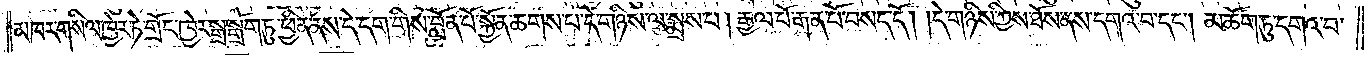མཁར་གསིལ་ཁྱེར་ཏེ་གྲོང་ཁྱེར་སྒྲ་སྒྲོག་ཏུ་ཕྱིན་ནས་དེ་དག་གིས་བློན་པོ་སྐྱོན་ཆགས་པ་དེ་གཉིས་ལ་སྨྲས་པ། རྒྱལ་པོ་རྒན་པོ་བསད་དོ། །དེ་གཉིས་ཀྱིས་ཐོས་ནས་དགའ་བ་དང༌། མཆོག་ཏུ་དགའ་བ་
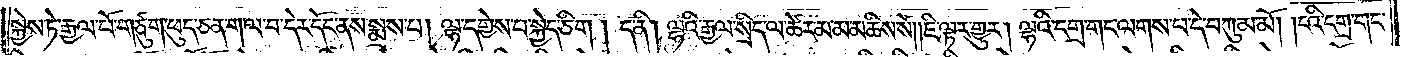སྐྱེས་ཏེ་རྒྱལ་པོ་གཙུག་ཕུད་ཅན་ག་ལ་བ་དེར་དོང་ནས་སྨྲས་པ། ལྷ་དགྱེས་པ་སྐྱེད་ཅིག །ད་ནི། ལྷའི་རྒྱལ་སྲིད་ལ་ཚེར་མ་མཆིས་སོ། །ཇི་ལྟར་གྱུར། ལྷའི་དགྲ་གང་ལགས་པ་དེ་བཀུམ་མོ། །ངའི་དགྲ་གང་
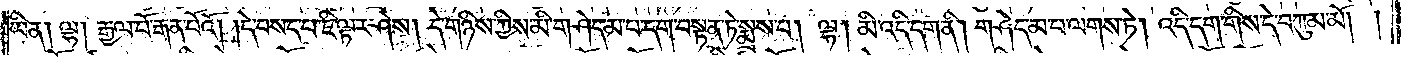ཡིན། ལྷ། རྒྱལ་པོ་རྒན་པོའོ། །དེ་བསད་པ་ཇི་ལྟར་ཤེས། དེ་གཉིས་ཀྱིས་མི་གཤེད་མ་པ་དག་བསྟན་ཏེ་སྨྲས་པ། ལྷ། མི་འདི་དག་ནི། གཤེད་མ་པ་ལགས་ཏེ། འདི་དག་གིས་དེ་བཀུམ་མོ།    །
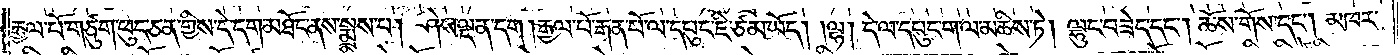རྒྱལ་པོ་གཙུག་ཕུད་ཅན་གྱིས་དེ་དག་མཐོང་ནས་སྨྲས་པ། ཤེས་ལྡན་དག །རྒྱལ་པོ་རྒན་པོ་ལ་དཔུང་ཇི་ཙམ་ཡོད། ལྷ། དེ་ལ་དཔུང་ག་ལ་མཆིས་ཏེ། ལྷུང་བཟེད་དང༌། ཆོས་གོས་དང༌། མཁར་
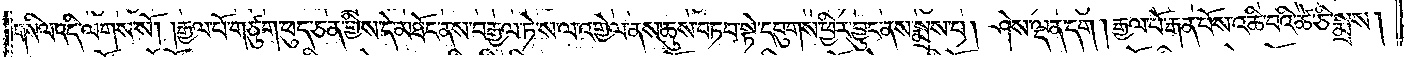གསིལ་འདི་ལགས་སོ། །རྒྱལ་པོ་གཙུག་ཕུད་ཅན་གྱིས་དེ་མཐོང་ནས་བརྒྱལ་ཏེ་ས་ལ་འགྱེལ་ནས་ཆུས་བཏབ་སྟེ་དབུགས་ཕྱིར་བྱུང་ནས་སྨྲས་པ། ཤེས་ལྡན་དག །རྒྱལ་པོ་རྒན་པོས་འཆི་བའི་ཚེ་ཅི་སྨྲས།
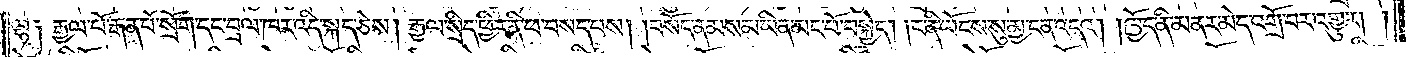ལྷ༑ རྒྱལ་པོ་རྒྱན་པོ་སྲོག་དང་བྲལ་ཁར་འདི་སྐད་ཅེས། རྒྱལ་སྲིད་ཕྱིར་ནི་ཕ་བསད་པས། །བསོད་ནམས་མ་ཡིན་མང་པོ་བསྐྱེད། །ང་ནི་ཡོངས་སུ་མྱ་ངན་འདའ། །ཁྱོད་ནི་མནར་མེད་འགྲོ་བར་འགྱུར། །
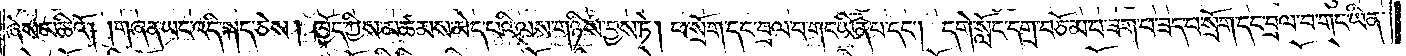ཞེས་མཆིའོ། །གཞན་ཡང་འདི་སྐད་ཅེས། ཁྱོད་ཀྱིས་མཚམས་མེད་པའི་ལས་གཉིས་བྱས་ཏེ། ཕ་སྲོག་དང་བྲལ་བ་གང་ཡིན་པ་དང༌། དགེ་སློང་དགྲ་བཅོམ་པ་ཟག་པ་ཟད་པ་སྲོག་དང་བྲལ་བ་གང་ཡིན་
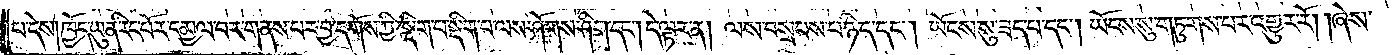པ་དེས། ཁྱོད་ཡུན་རིང་པོར་དམྱལ་བར་གནས་པར་བྱ་དགོས་ཀྱི་སྡིག་པ་སྡིག་པ་ལས་ཤོགས་ཤིག་དང༌། དེ་ལྟར་ན། ལས་བསྲབས་པ་ཉིད་དང།  ཡོངས་སུ་ཟད་པ་དང༌། ཡོངས་སུ་གཏུགས་པར་འགྱུར་རོ། །ཞེས་
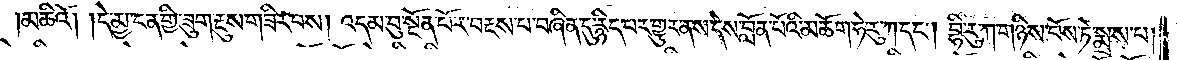མཆིའོ། །དེ་མྱ་ངན་གྱི་ཟུག་རྔུས་གཟིར་བས། འདམ་བུ་སྔོན་པོར་བརྔས་པ་བཞིན་དུ་རྙིད་པར་གྱུར་ནས་དེས་བློན་པོའི་མཆོག་ཧེ་རུ་ཀ་དང༌། བྷི་རུ་ཀ་གཉིས་པོས་ཏེ་སྨྲས་པ་
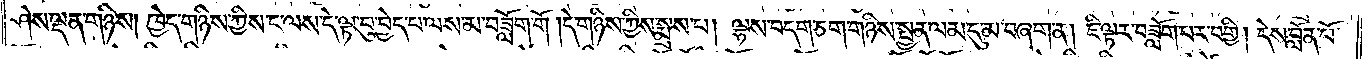ཤེས་ལྡན་གཉིས། ཁྱེད་གཉིས་ཀྱིས་ང་ལས་དེ་ལྟ་བུ་བྱེད་པ་ལས་མ་བཟློག་གོ །དེ་གཉིས་ཀྱིས་སྨྲས་པ། ལྷས་བདག་ཅག་གཉིས་སྤྱན་ལམ་དུ་མ་བཞག་ན། ཇི་ལྟར་བཟློག་པར་བགྱི། དེས་བློན་པོ་
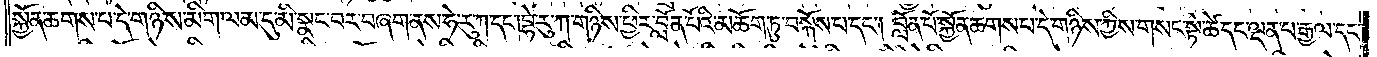སྐྱོན་ཆགས་པ་དེ་གཉིས་མིག་ལམ་དུ་མི་སྣང་བར་བཞག་ནས་ཧེ་རུ་ཀ་དང༌།བྷེ་རུ་ཀ་གཉིས་ཕྱིར་བློན་པོའི་མཆོག་ཏུ་བསྐོས་པ་དང༌། བློན་པོ་སྐྱོན་ཆགས་པ་དེ་གཉིས་ཀྱིས་གསང་སྟེ་ཚེ་དང་ལྡན་པ་རྒྱལ་དང་
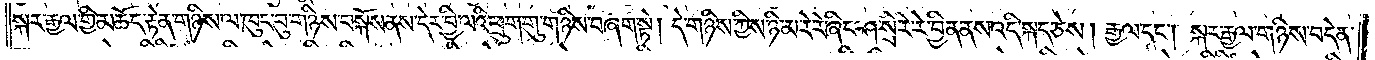སྐར་རྒྱལ་གྱི་མཆོད་རྟེན་གཉིས་ལ་ཁུང་བུ་གཉིས་བསྐོས་ནས་དེར་བྱི་ལའི་ཕྲུག་གུ་གཉིས་བཞག་སྟེ། དེ་གཉིས་ཀྱིས་ཉི་མ་རེ་རེ་ཞིང་ཤ་སྲེ་རེ་རེ་བྱིན་ནས་འདི་སྐད་ཅེས། རྒྱལ་དང༌། སྐར་རྒྱལ་གཉིས་བདེན་
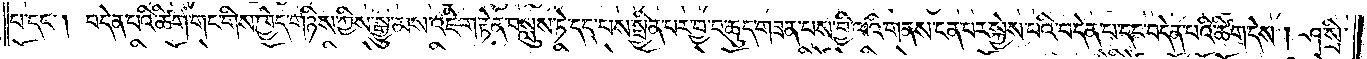པ་དང༌། བདེན་པའི་ཚིག་གང་གིས་ཁྱེད་གཉིས་ཀྱི་སྒྱུ་མས་འཇིག་རྟེན་བསླུས་ཏེ་དད་པས་སྦྱིན་པར་བྱ་བ་ཆུད་གཟན་པས་བྱི་ལའི་གནས་ངན་པར་སྐྱེས་པའི་བདེན་པ་དང་བདེན་པའི་ཚིག་དེས། ཤ་སྲི་
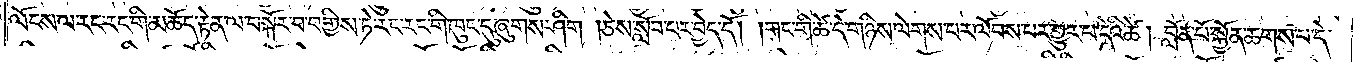ལོངས་ལ་རང་རང་གི་མཆོད་རྟེན་ལ་བསྐོར་བ་བགྱིས་ཏེ་རང་རང་གི་ཁུང་དུ་ཞུགས་ཤིག །ཅེས་སློབ་པར་བྱེད་དོ། །གང་གི་ཚེ་དེ་གཉིས་ལེགས་པར་ལོབས་པར་གྱུར་པ་དེའི་ཚེ། བློན་པོ་སྐྱོན་ཆགས་པ་དེ་
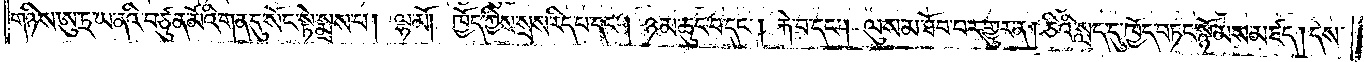གཉིས་ཨུ་ཏྲ་ཡ་ནའི་བཙུན་མོའི་གན་དུ་སོང་སྟེ་སྨྲས་པ། ལྷ་མོ། ཁྱོད་ཀྱིས་སྲས་རིད་པ་དང༌། ཉམ་ཆུང་བ་དང༌། རྐེ་བ་དང༌། ལུས་མ་ཐོབ་པར་གྱུར་ན། ཅིའི་སླད་དུ་ཁྱོད་བཏང་སྙོམས་མཛད། དེས་
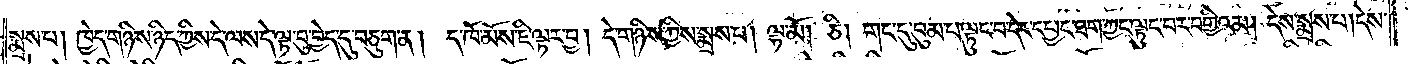སྨྲས་པ། ཁྱེད་གཉིས་ཉིད་ཀྱིས་དེ་ལས་དེ་ལྟ་བུ་བྱེད་དུ་བཅུག་ན། ད་ཁོ་མོས་ཇི་ལྟར་བྱ། དེ་གཉིས་ཀྱིས་སྨྲས་པ། ལྷ་མོ། ཅི། གང་དུ་བུམ་པ་ལྟུང་བ་དེར་དཔྱང་ཐག་ཀྱང་ལྟུང་བར་བགྱིའམ། དེས་སྨྲས་པ། དེས་
